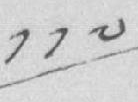༡༡༧
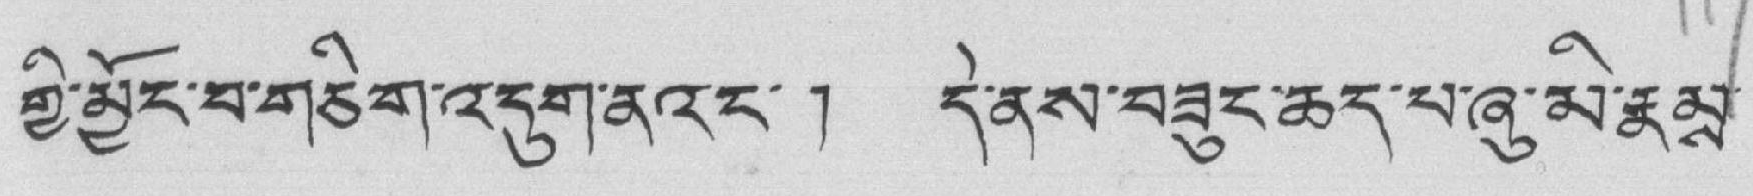གྱི་མྱོང་བ་གཅིག་འདུག་ནའང་། དེ་ནས་བཟུང་ཆད་པ་ཞུ་མི་རྣམས་
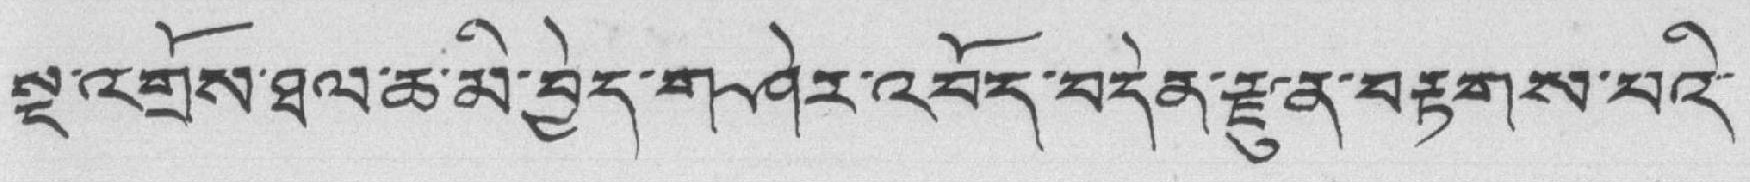སྔ་འགྲོས་ཐལ་ཆ་མི་བྱེད་ག་ཤེར་འབོད་བདེན་རྫུན་བརྟགས་པའི་
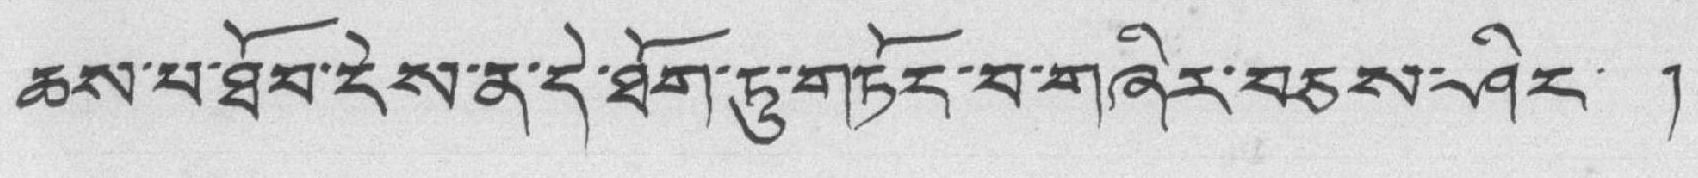ཆས་པ་ཐོབ་ངེས་ན་དེ་ཐོག་ཏུ་གཏོང་བ་གཞིར་བཅས་ཤིང་ །
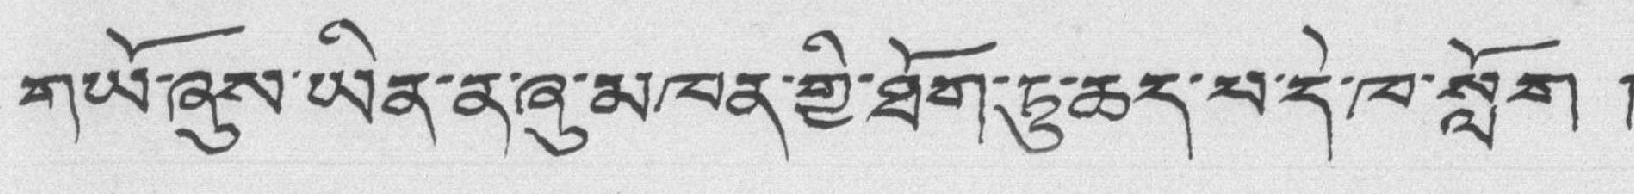གཡོ་ཞུས་ཡིན་ན་ཞུ་མཁན་གྱི་ཐོག་ཏུ་ཆད་པ་དེ་ཁ་སློག །
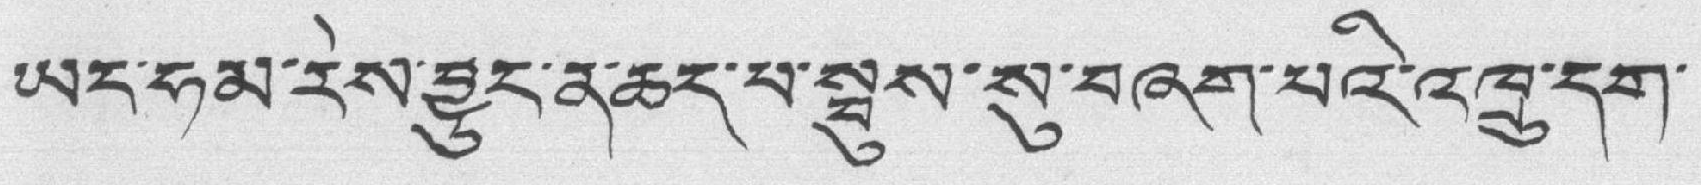ཡང་ཧམ་རེས་བྱུང་ན་ཆད་པ་སྦུས་སུ་བཞག་པའི་འཁྲུ་དག་
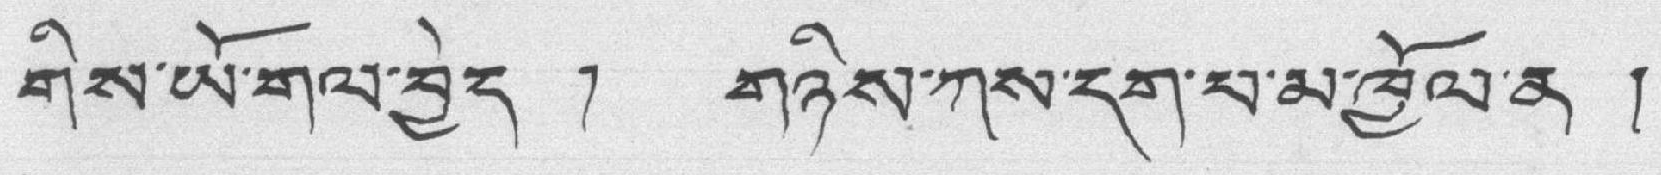གིས་ཡོ་གལ་བྱེད ། གཉིས་ཀས་དག་པ་མ་ཁྱོལ་ན །
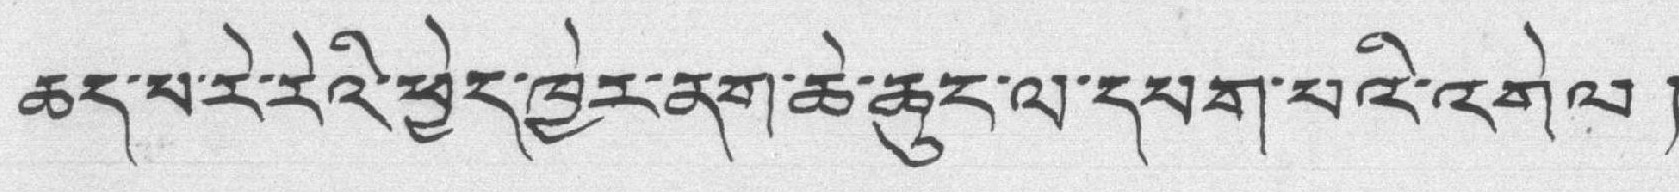ཆད་པ་རེ་རེའི་ཕྱེད་ཁྱེར་ནག་ཆེ་ཆུང་ལ་དམག་པའི་འགེལ །
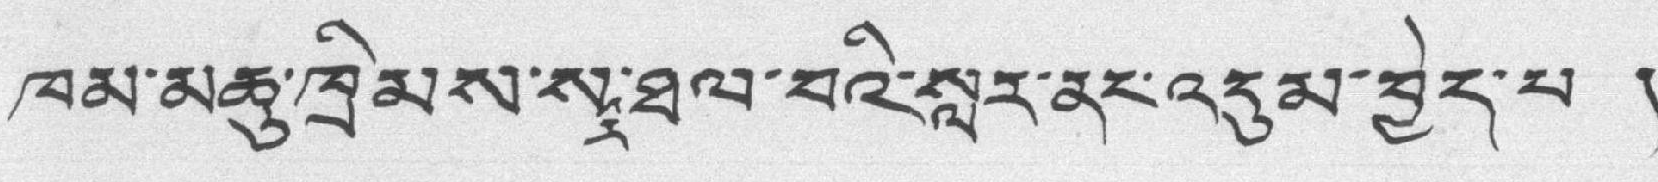ཁམ་མཆུ་ཁྲིམས་སར་ཐལ་བའི་སླར་ནང་འདུམ་བྱེད་པ །
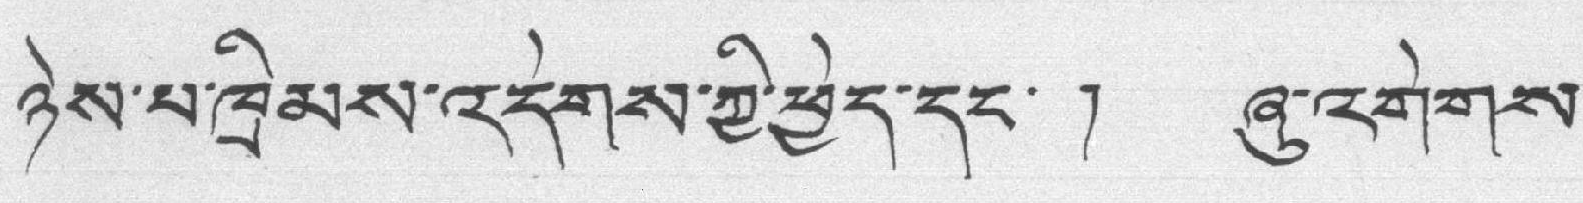ཉེས་པ་ཁྲིམས་འདེགས་ཀྱི་ཕྱེད་དང་ ། ཞུ་འགེགས་
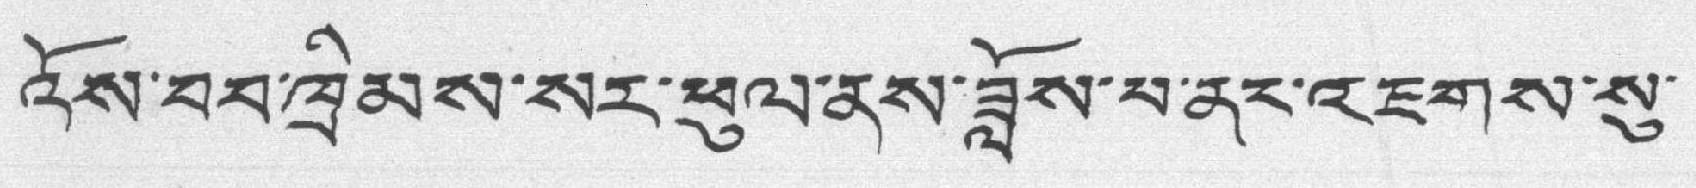འོས་བབ་ཁྲིམས་སར་ཕུལ་ནས་ཟློས་པ་ནང་འཇགས་སུ་
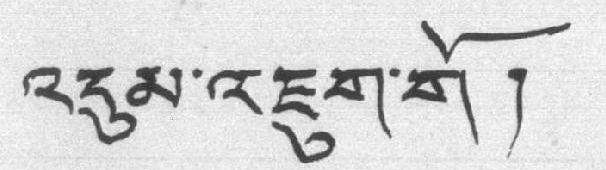འདུམ་འཇུག་གོ །
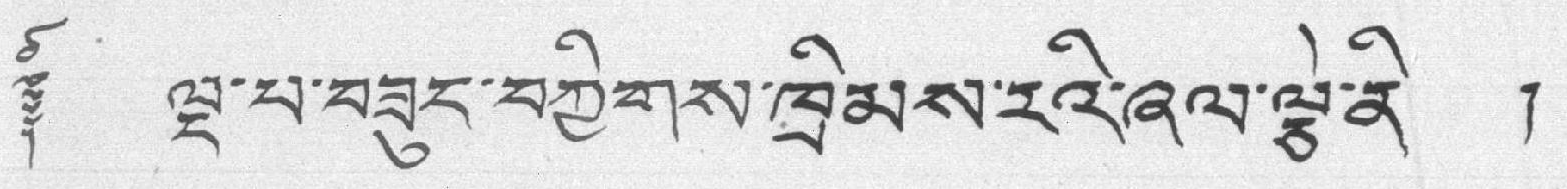༈ ལྔ་པ་བཟང་བཀྱིགས་ཁྲིམས་རའི་ཞལ་ལྕེ་ནི །
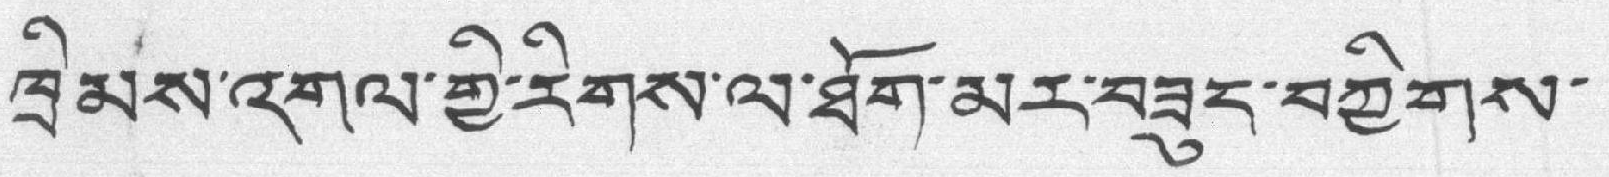ཁྲིམས་འགལ་གྱི་རིགས་ལ་ཐོག་མར་བཟུང་བཀྱིགས་
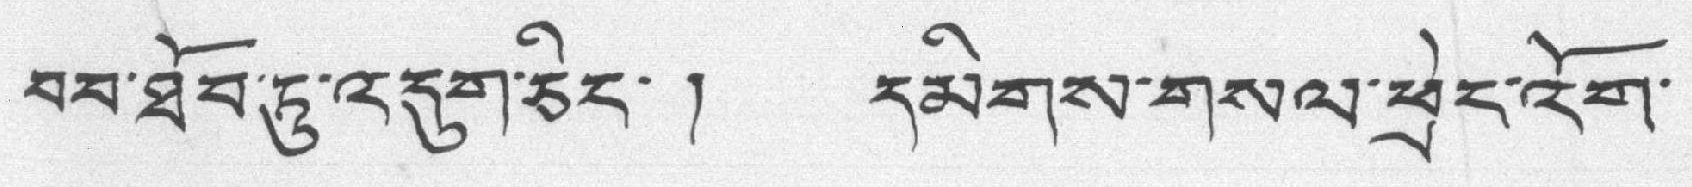བབ་ཐོབ་ཏུ་འདུག་ཅིང་། དམིགས་གསལ་ཕྲེང་འོག་
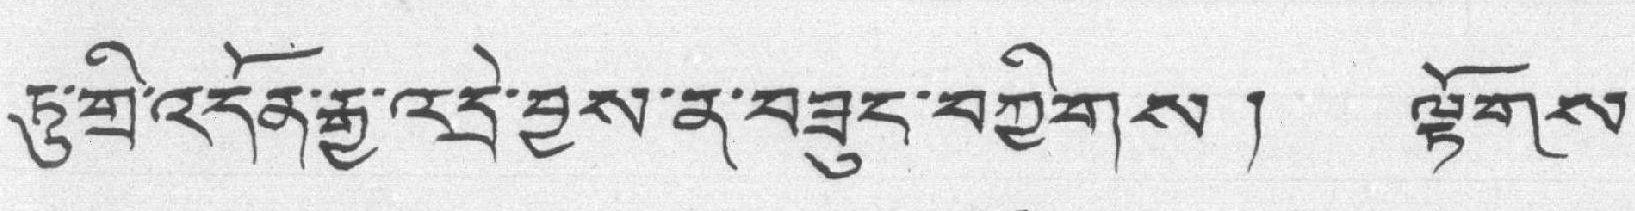ཏུ་གྲི་འདོན་རྒྱ་འདྲེ་བྱས་ན་བཟུང་བཀྱིགས། ལྟོགས་
